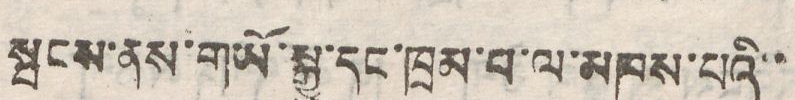སྦངས་ནས་གཡོ་སྒྱུ་དང་ཁྲམ་པ་ལ་མཁས་པའི་་
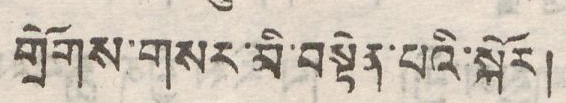གྲོགས་གསར་མི་བསྟེན་པའི་སྐོར།
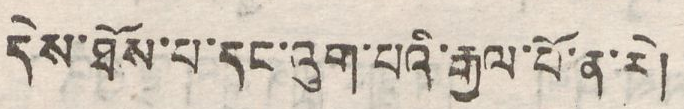དེས་ཐོས་པ་དང་འུག་པའི་རྒྱལ་པོ་ན་རེ།
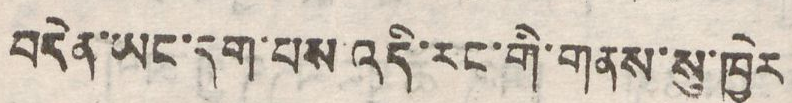བདེན་ཡང་དག་པས་འདི་རང་གི་གནས་སུ་ཁྱེར
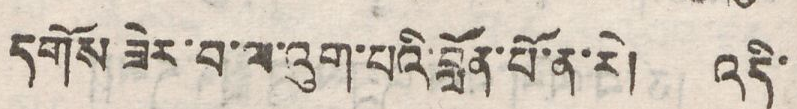དགོས ཟེར་བ་ལ་འུག་པའི་བློན་པོ་ན་རེ། འདི་
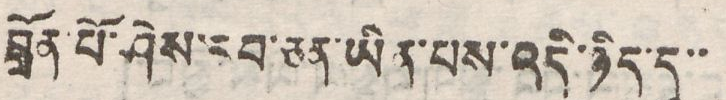བློན་པོ་ཤེས་རབ་ཅན་ཡིན་པས་འདི་ཉིད་དུ་
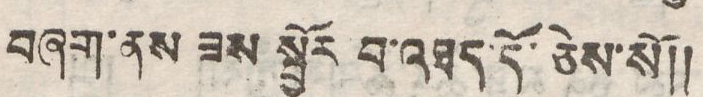བཞག་ནས ཟས སྦྱོར བ་འཐད་དོ་ཅེས་སོ།།
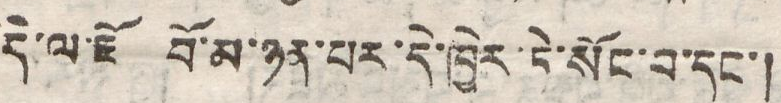དེ་ལ་ཇོ བོ་མ་ཉན་པར་དེ་ཁྱེར་ཏེ་སོང་བ་དང་།
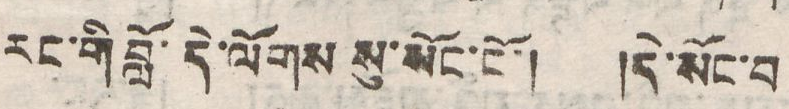རང་གི་བློ་དེ་ལོགས་སུ་སོང་ངོ་། །དེ་སོང་བ
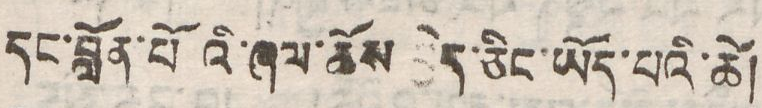དང་བློན་པོའི་ཞལ་ཆོས བྱེད་ཅིང་ཡོད་པའི་ཚེ།
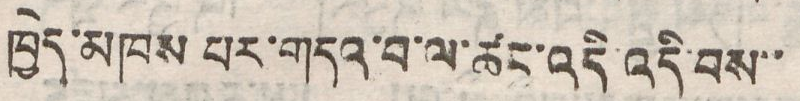ཁྱེད་མཁས པར་གདའ་བ་ལ་ཚང་འདི འདི་བས་་
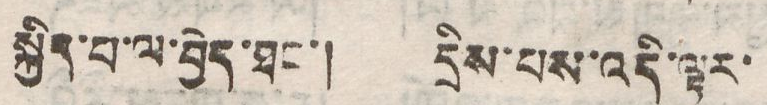སྐྱིད་པ་ལ་བྱེད་ཐང་། དྲིས་པས་འདི་ལྟར་
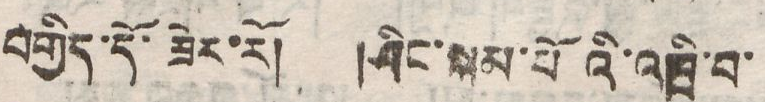བགྱིད་དོ་ཟེར་རོ། །ཤིང་སྐམ་པོའི་འཁྲི་བ་
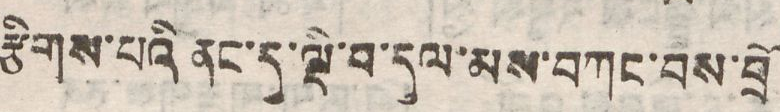རྩིགས་པའི ནང་དུ་ལྡི་བ་དུལ་མས་བཀང་བས་བྲོ
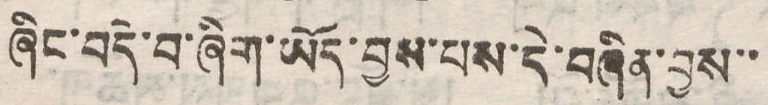ཞིང་བདེ་བ་ཞིག་ཡོད་བྱས་པས་དེ་བཞིན་བྱས་་
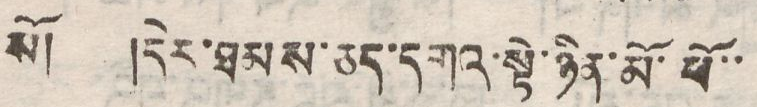སོ། །དེར་ཐམས་ཅད་དགའ་སྟེ་ཉིན་མོ་ཕོ་་
